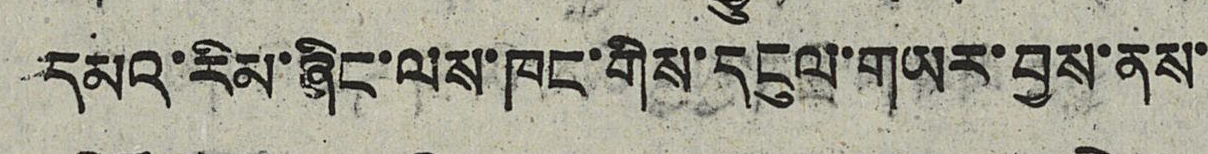དམའ་རིམ་ཞིང་ལས་ཁང་གིས་དངུལ་གཡར་བྱས་ནས་་
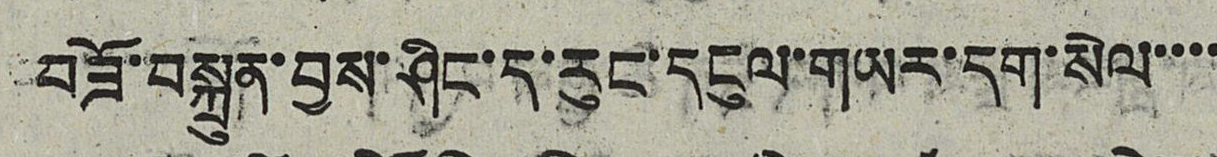བཟོ་བསྐྲུན་བྱས་ཤིང་ད་རུང་དངུལ་གཡར་དག་སེལ་་་་
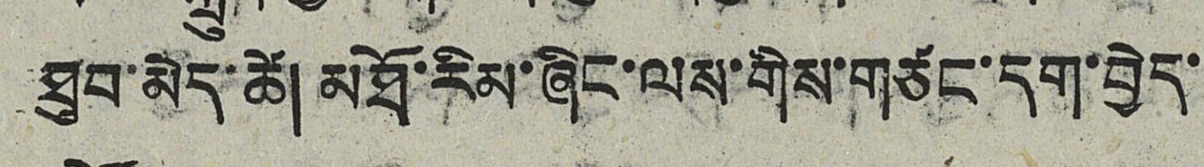ཐུབ་མེད་ཚེ། མཐོ་རིམ་ཞིང་ལས་གིས་གཙང་དག་བྱེད་་
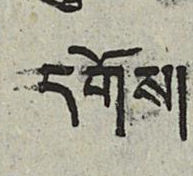དགོས།
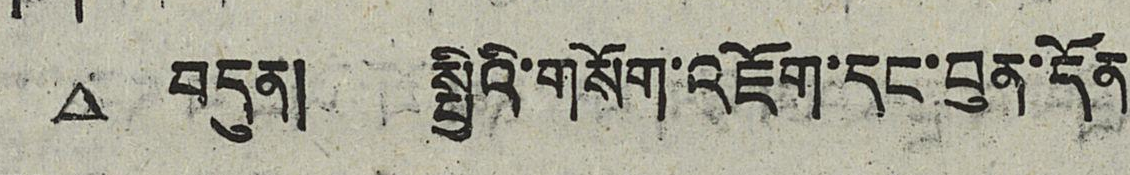△ བདུན། སྤྱིའི་གསོག་འཇོག་དང་བུན་དོན
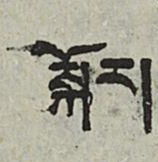སྐོར།
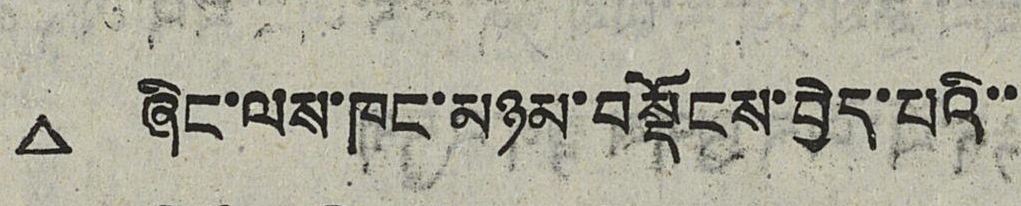△ ཞིང་ལས་ཁང་མཉམ་བསྡོངས་བྱེད་པའི་་་
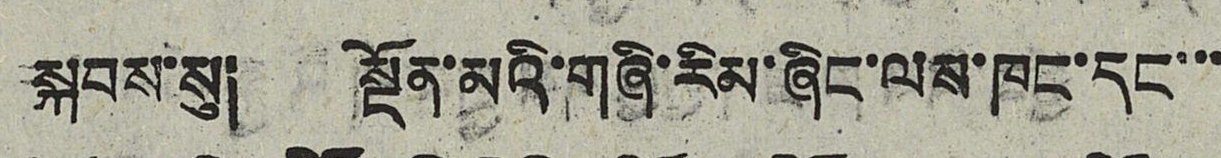སྐབས་སུ། སྔོན་མའི་གཞི་རིམ་ཞིང་ལས་ཁང་དང་་་
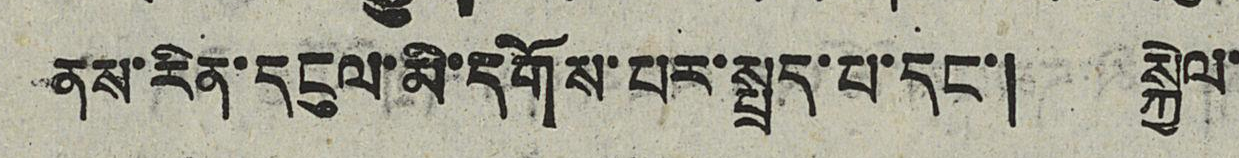ནས་རིན་དངུལ་མི་དགོས་པར་སྤྲད་པ་དང་། སྐྱེལ་
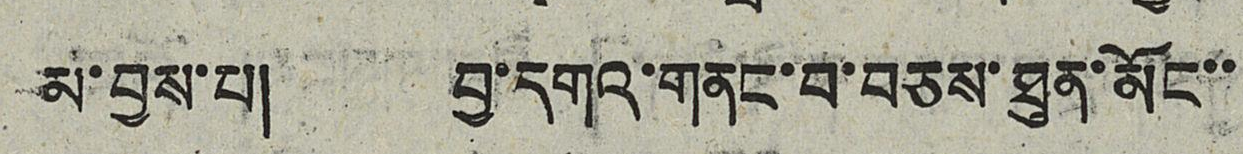མ་བྱས་པ། བྱ་དགའ་གནང་བ་བཅས་ཐུན་མོང་་
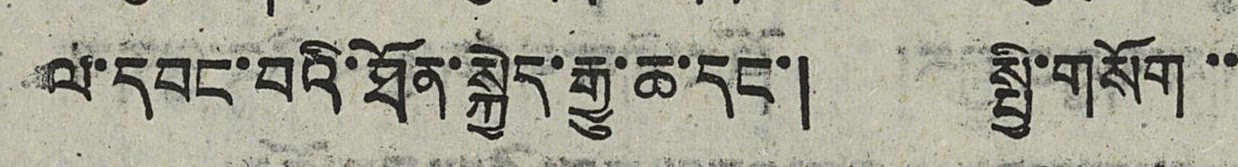ལ་དབང་བའི་ཐོན་སྐྱེད་རྒྱུ་ཆ་དང་། སྤྱི་གསོག་་
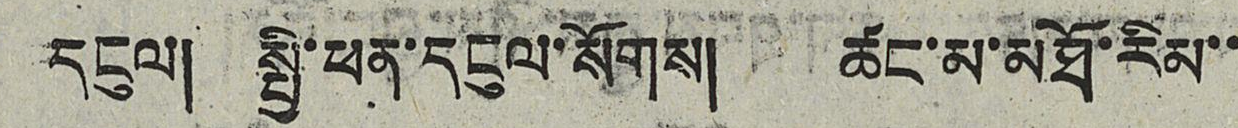དངུལ། སྤྱི་ཕན་དངུལ་སོགས། ཚང་མ་མཐོ་རིམ་་
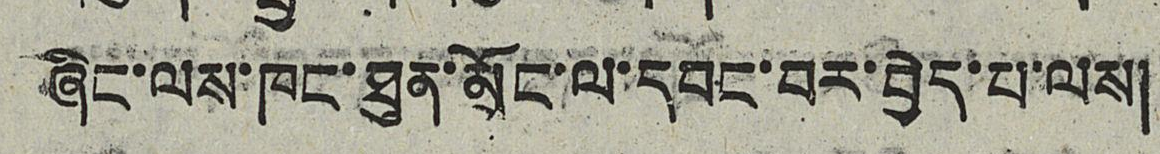ཞིང་ལས་ཁང་ཐུན་མོང་ལ་དབང་བར་བྱེད་པ་ལས།
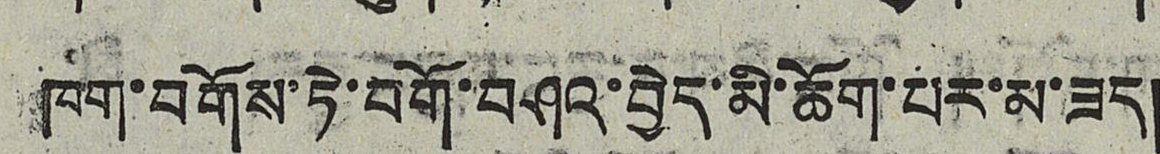ཁག་བགོས་ཏེ་བགོ་བཤའ་བྱེད་མི་ཆོག་པར་མ་ཟད།
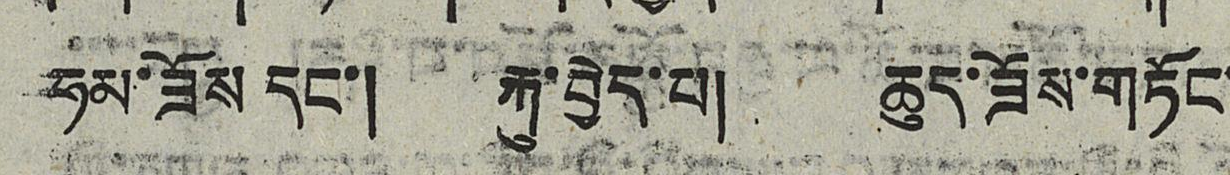ཧམ་ཟོས དང་། རྐུ་བྱེད་པ། ཆུད་ཟོས་གཏོང་
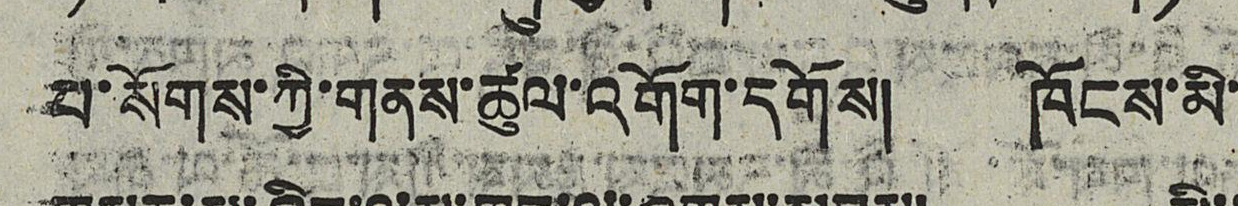པ་སོགས་ཀྱི་གནས་ཚུལ་འགོག་དགོས། ཁོངས་མི་
